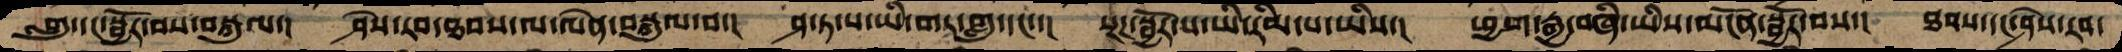གླུ་དང་སྦྱོར་བས་བསྐུལ་།  ཤེས་རབ་ཐབས་ལ་ལེན་བསྐུལ་བ་།  ཤ་ཏ་པ་ཡི་གར་གླུ་དང་་།  སྔཌ་སྦྱོར་པ་ཡི་རིམ་པ་ཡིས་།  ཕྱག་རྒྱ་བཞི་ཡིས་མངོན་སྦྱོར་བས་།  ཐབས་དང་ཤེས་རབ་
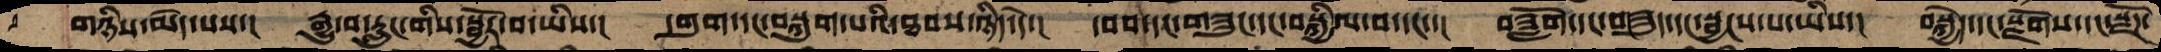གཉིས་མེད་པས་། རྒྱུ་བ་རླུང་གིས་སྦྱོར་བ་ཡིས་། དགུག་དང་བསྐུག་པའི་ཐབས་ཉིད་དེ་། དབབ་དང་གཟུང་དང་བསྐྱིལ་བ་དང་་། བཟློག་དང་གཟུད་དང་སྦྱངས་པ་ཡིས་། བསྐྱེད་དང་སྫོགས་དང་སྫོཌ་
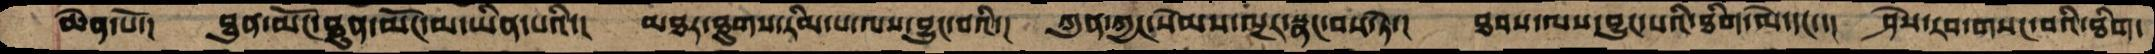ཆེན་པོ་།  ཐུན་མོང་ཐུན་མོང་མ་ཡིན་པའི་།  མཐར་ཐུགས་རིམ་པ་ལས་བྱུང་བའི་།  ཀུན་ཀྱང་སེམས་ལྔར་སྣང་བས་ཏེ་།  ཐབས་ལས་བྱུང་པའི་ཐིག་ལེ་དང་་།  ཤེས་རབ་གསང་བའི་ཐིག་
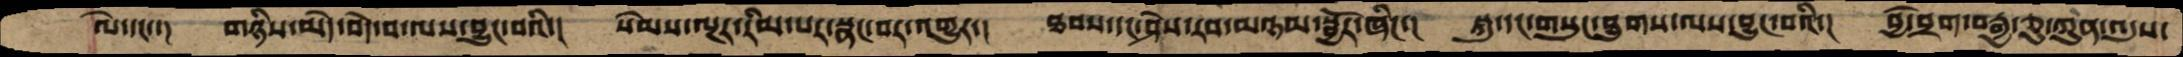ལེ་དང་་།  གཉིས་མེད་བདེ་བ་ལས་བྱུང་བའི་།  སེམས་ལྔར་རིམ་པར་སྣང་བར་འགྱུར་།  ཐབས་དང་ཤེས་རབ་མཉམ་སྦྱོར་ཞིང་།  སྐུ་དང་གསུང་ཐུགས་ལས་བྱུང་བའི་།  བྱེ་བྲག་བརྒྱ་ཅུ་ཀུན་འདུས་
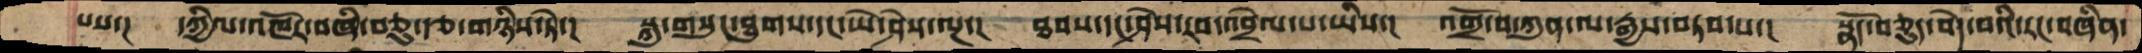པས་།  དཀྱིལ་འཁོར་བཞི་བཅུ་རྩ་གཉིས་ཏེ་།  སྐུ་གསུང་ཐུགས་དང་ཡེ་ཤེས་ལྔ་།  ཐབས་དང་ཤེས་རབ་འབྲེལ་པ་ཡིས་།  འགྲོ་བ་ཀུན་ལ་རྒྱས་བཏབ་པ་།  སྣོད་བཅུད་བདེ་བའི་རང་བཞིན་
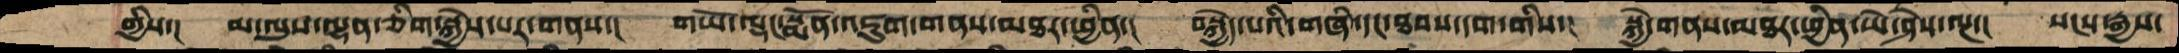གྱིས་།  མ་ལུས་ལྷན་ཅིག་སྐྱེས་པར་གནས་།  གཡོ་ལྡང་སྨོན་འཇུག་གནས་མཐར་ཕྱིན་།  བསྐྱེད་པའི་གཞི་དང་ཐབས་དག་གིས་།  སྐྱེ་གནས་མཐར་ཕྱིན་ཡེ་ཤེས་ལྔ་།  སངས་རྒྱས་
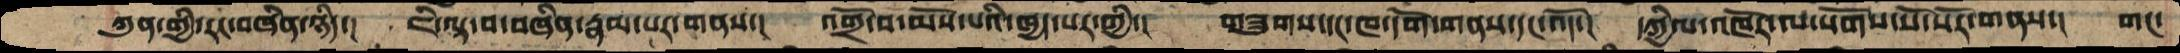ཀུན་གྱི་རང་བཞིན་ཉིད་།  ཇི་ལྟ་བ་བཞིན་རྣམ་པར་གནས་།   འགྲོ་བ་མོས་པའི་ཁྱད་པར་གྱི་།   གཟུགས་དང་ཁ་དོག་གནས་དང་འོད་།  དཀྱིལ་འཁོར་ལ་སོགས་སོ་སོར་གནས་།  གང་
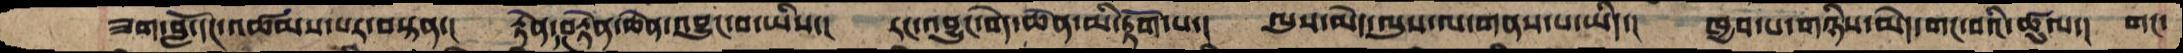ཟག་བློ་དང་འཚམས་པར་བསྟན་། རྟེན་དང་བརྟེན་ཆེན་འབྱུང་བ་ཡིས་། རང་འབྱུང་བདེ་ཆེན་མི་རྟོག་པ་། ལུས་མེད་ལུས་ལ་གནས་པ་ཡིད་། ཁྱབ་པ་གཉིས་མེད་གང་བའི་ཚུལ་། གང་
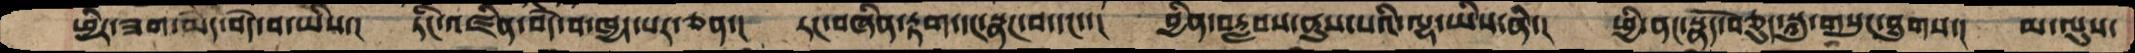ཕྱིར་ཟག་མེད་བདེ་བ་ཡིས་།  ཏིང་འཛིན་བདེ་བ་ཁྱད་པར་ཅན་།  རང་བཞིན་རྟག་དང་སྣང་བ་དང་་།  བྱིནབརླབས་ནུས་པའི་ལྷ་ཡིས་ནི་།   ཕྱི་ནང་སྣོད་བཅུད་སྐུ་གསུང་ཐུགས་།  མ་ལུས་
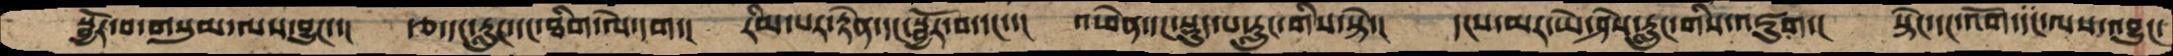སྦྱོར་བ་གསུམ་ལས་བྱུང་་། རྩ་དང་རླུང་དང་ཐིག་ལེ་དག་། རིམ་པར་རྟེན་དང་སྦྱོར་བ་དང་་། འཕེན་དང་སྡུད་པ་རླུང་གིས་སྟེ་།  དངས་མར་ཡེ་ཤེས་རླུང་གིས་འཇུག་། སྟེང་དང་འོག་དང་ལས་འབྱུང་
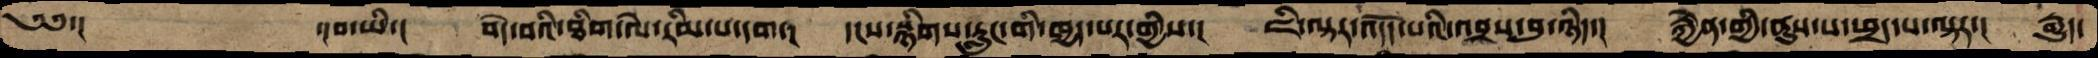༄༅་།        ་།བ་ཡི་།    བདེ་བའི་ཐིག་ལེ་རིམ་པ་དག་།  དངས་སྙིགས་རླུང་གི་ཁྱད་པར་གྱིས་།   ཇི་ལྟར་འདོད་པའི་འབྲས་བུ་ཉིད་།  རྐྱེན་གྱི་ནུས་པ་ཕྲད་པ་ལྟར་།  རྒྱུད་
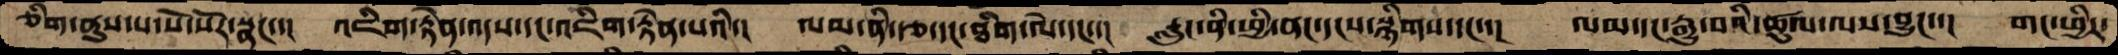ཅིག་ནུས་པ་སོ་སོར་སྣང་་།  འཇིག་རྟེན་འདས་དང་འཇིག་རྟེན་པའི་།  ལམ་ནི་རྩ་དང་ཐིག་ལེ་དང་་།  རླུང་ནི་ཕྱི་ནང་དངས་སྙིགས་དང་་།  ལམ་དང་རྒྱུ་བའི་ཚུལ་ལས་བྱུང་་།  གང་ཕྱིར་
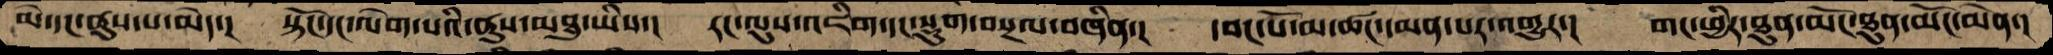མེ་དང་ནུས་པ་མེད་།  སྟོང་དང་ལོག་པའི་ནུས་མཐུ་ཡིས་།  རང་ལུས་འཇིག་དང་སྡུག་བསྔལ་བཞིན་།  དབང་པོ་མ་ཚང་དམན་པར་འགྱུར་།  གང་ཕྱིར་ཐུན་མོང་ཐུན་མོང་མེན་།
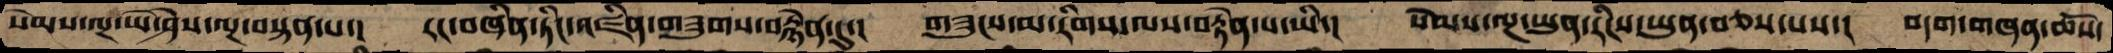སེམས་ལྔ་ཡེ་ཤེས་ལྔ་བསྟན་པ་།  རང་བཞིན་ཏིང་འཛིན་གཟུགས་བརྙེན་དུ་།  གཟུངས་མ་རིགས་ལས་བརྟེན་པ་ཡི་།  སེམས་ལྔ་ཡུན་རིངས་ཡུན་བཅས་པས་།  བདག་གཞན་ཆོས་
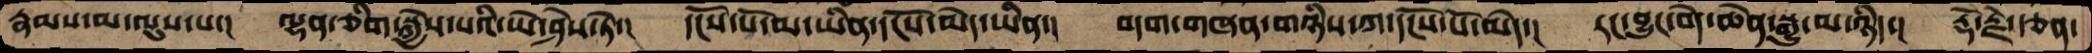རྣམས་མ་ལུས་པ་།  ལྷན་ཅིག་སྐྱེས་པའི་ཡེ་ཤེས་ཏེ་།  དངོས་པོ་མ་ཡིན་དངོས་མེད་ཡིན་།  བདག་གཞན་གཉིས་ཀ་དངོས་པོ་མེད་།  རང་བྱུང་བདེ་ཆེན་སྒྱུ་མ་ཉིད་།  རྡོ་རྗེ་རྩན་
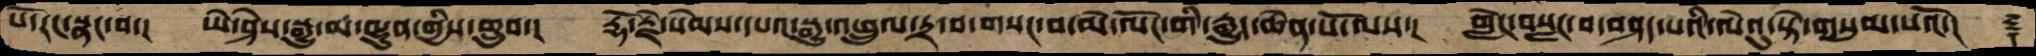པོ་རང་སྣང་བ་།  ཡེ་ཤེས་སྒྱུ་མ་ལྷུན་གྱིས་གྲུབ་།  རྡོ་རྗེ་སེམས་དཔའ་སྒྱུ་འཕྲུལ་དྲ་བ་གསང་བ་མེ་ལོང་གི་རྒྱུད་ཆེན་པོ་ལས་།  གླེང་བསླང་བ་བཤད་པའི་ལེའུ་སྟེ་གསུམ་པའོ་།   ࿑
